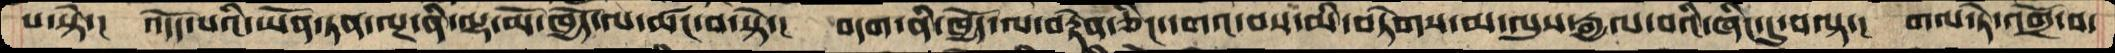པ་སྟེ་།  འདོད་པའི་ཡོན་ཏན་ལྔ་ནི་ལྷ་མོ་ཁྱོད་ལ་ཚང་བ་སྟེ་།   བདག་ནི་ཁྱོད་ལ་བརྟེན་ཅིང་དགའ་བས་མི་བཏེགས་མ་ལུས་རྒྱལ་བའི་ཞིང་དུ་བལྟ་།  གལ་ཏེ་འགྲོ་བ་
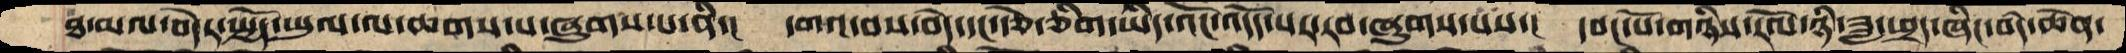ཐ་མལ་བདེར་སྤྱོད་ཡུལ་ལ་ཆགས་པ་ཞུགས་པ་ནི་།  དགའ་བས་བདེ་དང་རྩེ་ཅིག་ཡིད་འོང་འདོད་པར་རབ་ཞུགས་པས་།  དབང་པོ་གཉིས་རོལ་ཉི་ཟླ་ཕྲད་ཞིང་བདེ་ཆེན་
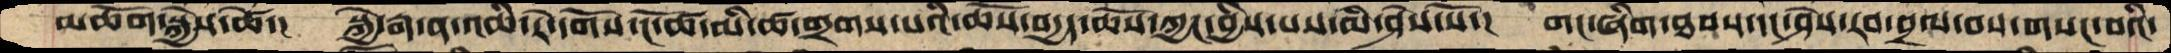མཆོག་སྐྱེས་ཚེ་།  སྐྱེ་རྒ་ན་འཆི་རེ་དོགས་ངོ་ཚ་མི་ཚ་གྲགས་པའི་ཆོས་བདྱད་ཆོས་ཀྱང་བྱིས་པས་མི་ཤེས་སོ་།  གང་ཞིག་ཐབས་དང་ཤེས་རབ་བྲལ་བས་གསང་བའི་
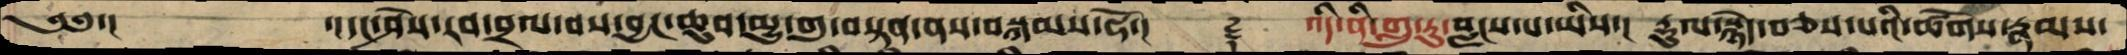༄༅་།    ་།དང་ཤེས་རབ་བྲལ་བས་བྱང་ཆུབ་མྱུ་གུ་བསྟན་ནས་བསྐམས་ཧོ་།   ࿑    འདི་ནི་གླུ་རུ་བླངས་པ་ཡིས་།  རྡུལ་སྙེད་བཅས་པའི་ཚོགས་རྣམས་
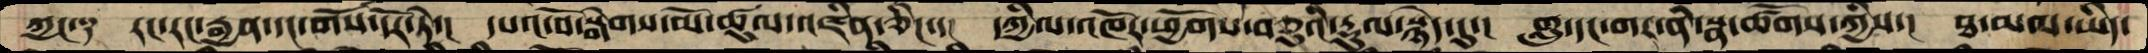ཀྱང་༑  རང་རང་རྒྱན་དང་གོས་དོར་ཏེ་།  དཔའ་པོ་སྒེགས་མོ་ཚུལ་འཛིན་ཅིང་་།  དཀྱིལ་འཁོར་ཕྱོགས་བཅུའི་རྡུལ་སྙེད་དུ་།  གླུ་དང་གར་ནི་སྣ་ཚོགས་ཀྱིས་།  ཐ་མལ་ཡིད་
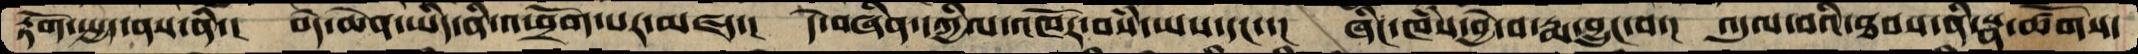རྟོག་སྤྱད་ནས་ནི་།  བདེ་ཆེན་ཡིད་ནི་འཕྲོག་པར་མཛད་།  དེ་བཞིན་དཀྱིལ་འཁོར་བསཾ་ཡས་དང་་།  ཞིང་ཁཾས་བྱེ་བ་རྨ་བྱུང་བ་།  འདུལ་བའི་ཐབས་ནི་སྣ་ཚོགས་
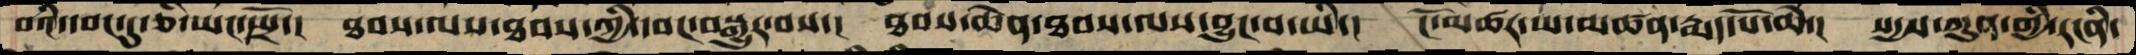པའི་དབང་དུ་ཅི་ཡང་སྤྲོ་།  ཐབས་ལས་ཐབས་ཀྱི་དབང་བསྒྱུར་བས་།  ཐབས་ཆེན་ཐབས་ལས་བྱུང་བ་ཡི་།  ངོ་མཚར་ཡ་མཚན་རྨད་པོ་ཆེ་།  སདྱས་ཀུན་གྱི་རངིན་
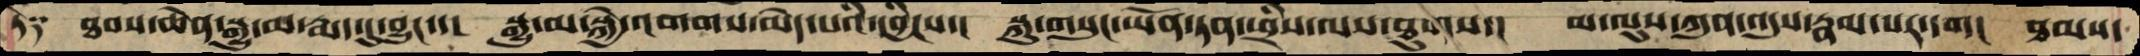ཏེ༑   ཐབས་ཆེན་སྒྱུ་མ་རྨད་དུ་བྱུང་་།  སྒྱུ་མ་སྐྱེ་འགགས་མེད་པའི་དབྱིངས་།  སྐུ་གསུང་ཡོན་ཏན་ཕྲིས་ལས་ཐུགས་།  མ་ལུས་ཀུན་འདུས་རྣམ་པར་དག།  ཐམས་
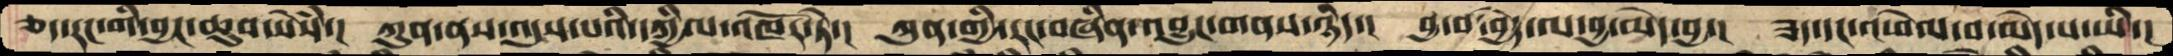ཅད་རང་གི་བྱང་ཆུབ་སེསཾ་།  ཀུན་ནས་འདུས་པའི་དཀྱིལ་འཁོར་ཏེ་།  ཀུན་གྱི་རང་བཞིན་འབྱུང་གནས་ཉིད་།  བྱ་བ་བྱེད་ལ་བྱ་མེད་བྱ་།  ཟད་དང་འཕེལ་བ་མེད་པ་ཡི་།
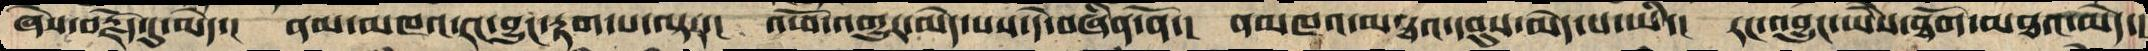ཞེས་བརྗོད་དུ་མེད་།  ནམ་མཁའ་རང་བྱུང་རྟག་པ་ལྟར་།  འཕོ་འགྱུར་མེད་པས་དེ་བཞིན་ནོ་།  ནམཁའ་མཐའ་དབུས་མེད་པ་ཡི་།  རང་འབྱུང་ཡཻས་ཐོག་མཐའ་མེད་།
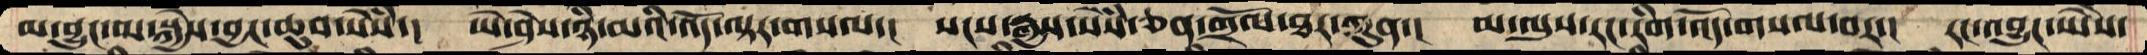མ་བྱུང་མ་སྐྱེས་བྱང་ཆུབ་སེཾས་།  ཡེ་ཤེས་ཉི་མའི་འོད་ལྟར་གསལ་།  སངས་རྒྱས་སེཾས་ཅན་གྲོལ་ཐར་ཀུན་།  མ་ལུས་རང་རིག་འོད་གསལ་བར་།  རང་འབྱུང་ཡཻས་
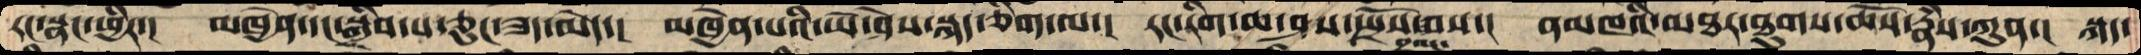རང་སྣང་ཕྱིར་། མཁྱེན་དང་སྒྲིབ་པ་ཅུང་ཟད་མེད་། མཁྱེན་པའི་ཡེ་ཤེས་སྐད་ཅིག་ལ་། རང་རིག་ཆ་ཤས་སྤྲོས་བྲལ་བས་། ནམཁའི་མཐར་ཐུགས་ཆོས་རྣཾས་ཀུན་། སྐད་
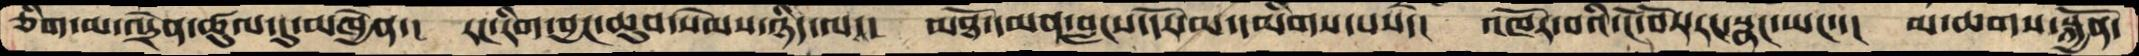ཅིག་མ་འདྲེན་ཚུལ་དུ་མཁྱེན་།  རང་རིག་བྱང་ཆུབ་སེམས་ཉིད་ལ་།  མཐོ་དམན་བླངས་དོར་མ་དམིགས་པས་།  འཁོར་བའི་ངོ་བོར་རང་སྣང་ཡང་་།  མ་ཆགས་སྐྱོན་
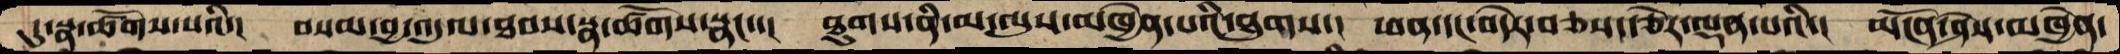དུ་སྣ་ཚོགས་པའི་།  བསམ་བྱ་འདུལ་ཐབས་སྣ་ཚོགས་སྣང་་།  ཐུགས་ནི་མ་ལུས་མཁྱེན་པའི་ཐུགས་།  ཕན་དང་བདེར་བཅས་རྩེར་ལྡན་པའི་།  མངོན་ཤེས་མཁྱེན་
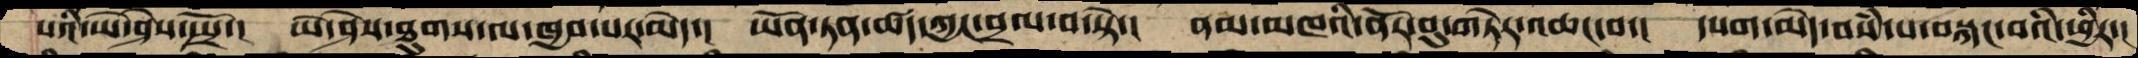པའོ་ཡེ་ཤེས་སྤྲོ་།  ཡེ་ཤེས་ཐུགས་ལ་ཁྱབ་པར་མེད་།  ཡོན་ཏན་ཚད་ཀྱང་བྲལ་བ་སྟེ་།  ནམ་མཁའི་ནོར་བུ་གཏེར་འཆང་བ་།  དཔག་མེད་བསཾ་པ་བསྐང་བའི་ཕྱིར་།
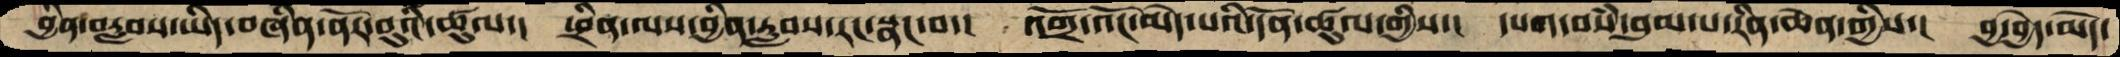བྱིན་བརླབས་ཡིད་བཞིན་ནོར་བུའི་ཚུལ་།  ཕྲིན་ལས་བྱིན་རླབས་རང་སྣང་བ་།  འགྲོ་འོང་མེད་པའི་དོན་ཚུལ་གྱིས་།  དཔག་བསཾ་བུམ་པ་རིན་ཆེན་གྱིས་།  བྱ་བྱེད་མེད་
